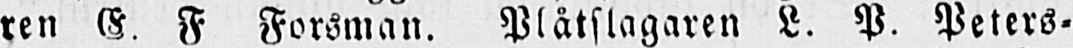ren E. F. Forsman. Plåtslagaren L. P. Peters-
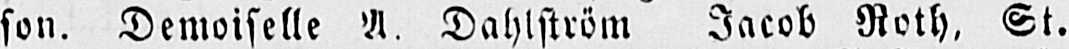son. Demoiselle A. Dahlström Jacob Roth, St.
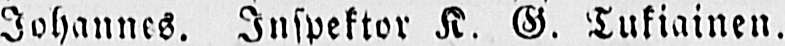Johannes, Inspektor K. G. Tukiainen. Tullwaktmä-
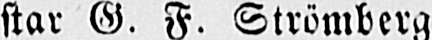star G. F. Strömberg
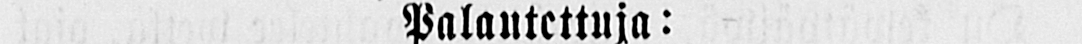Palautettuja:
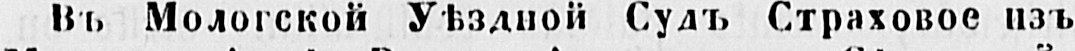Въ Мологской УѢздной Сулъ Страховое нзъ
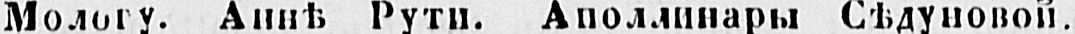Молог. АннѢ Рути Aпoллинары СѢдуновой.
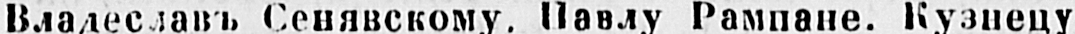Владеславъ Сенявскому. Павлу Рампане. Кузнецу
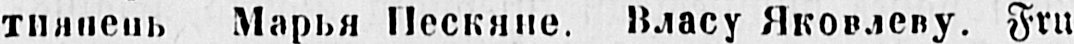тиянень Марья Нескяне. Власу Яковлеву. Fru
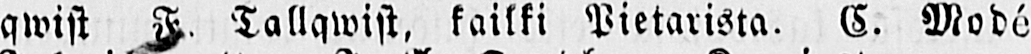qwist F. Tallqwist, kaikki Pietarista. C. Modén,
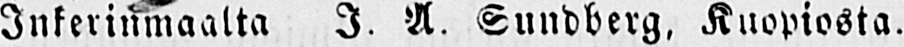Inkerinmaalta I. A. Sundberg, Kuopiosta.
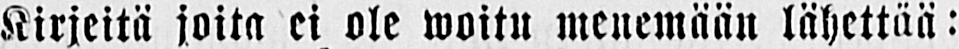Kirjeitä joita ei ole woitu menemään lähettää:
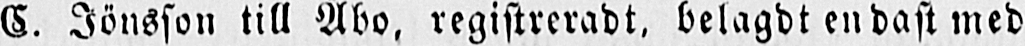C. Jönsson till Åbo, registreradt, belagdt endast med
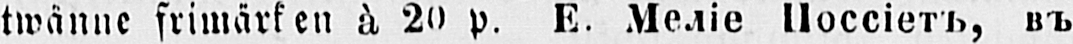twänne frimärken à 20 p. E. Meлie Пociетъ въ
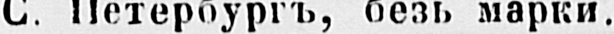C. Петербр rъ , безь марки .
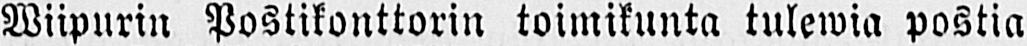Wiipurin Postikonttorin toimikunta tulewia postia
